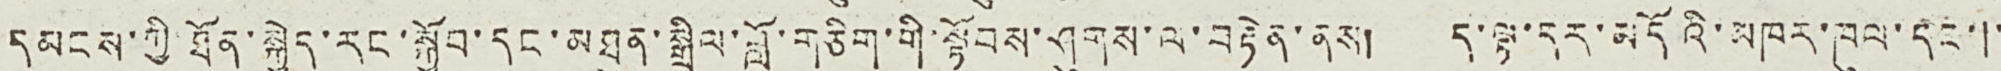དམངས་ཀྱི་ཐོན་སྐྱེད་རང་སྐྱོབ་དང་མཐུན་སྒྲིལ་བློ་གཅིག་གི་སྟོབས་ཤུགས་ལ་བརྟེན་ནས། ད་ལྟ་དར་མདོའི་མཁར་ཁུལ་དང་།་
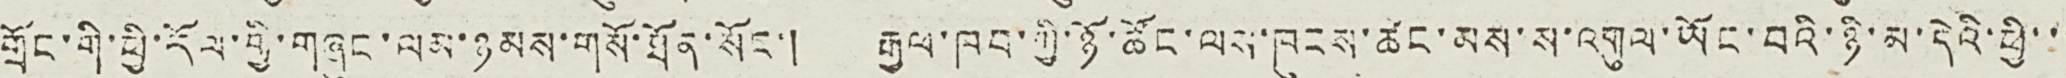གྲོང་གི་ཕྱི་རོལ་གྱི་གཞུང་ལམ་ཉམས་གསོ་ཐོན་སོང་། རྒྱལ་ཁབ་གྱི་ཉོ་ཚོང་ལས་ཁུངས་ཚང་མས་ས་འགུལ་ཡོང་བའི་ཉི་མ་དེའི་ཕྱི་་་
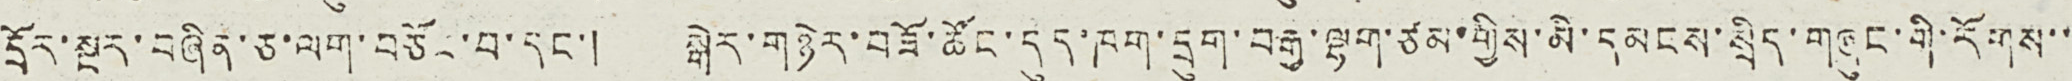དྲོར་སྔར་བཞིན་ཅ་ལག་བཅོང་བ་དང་། སྒེར་གཉེར་བཟོ་ཚོང་དུད་ཁག་དྲུག་བརྒྱ་ལྷག་ཙམ་གྱིས་མི་དམངས་སྲིད་གཞུང་གི་རོགས་་
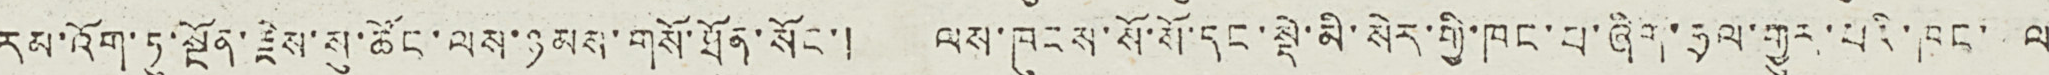རམ་འོག་ཏུ་སྔོན་རྗེས་སུ་ཚོང་ལས་ཉམས་གསོ་ཐོན་སོང་། ལས་ཁུངས་སོ་སོ་དང་སྡེ་མི་སེར་གྱི་ཁང་པ་ཞིག་ཧྲལ་གྱུར་པའི་ཁང་ ལ་
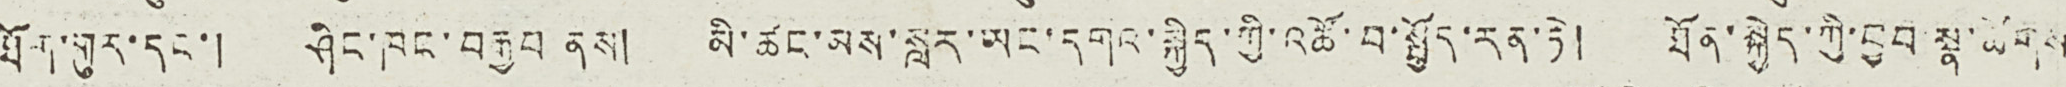ཐོག་གུར་དང་། ཤིང་ཁང་བརྒྱབ ནས། མི་ཚང་མས་སླར་ཡང་དགའ་སྐྱིད་ཀྱི་འཚོ་བ་སྤྱོད་རན་ཏེ། ཐོན་སྐྱེད་ཀྱི་བྱ་བ་སྣ་ཚོགས
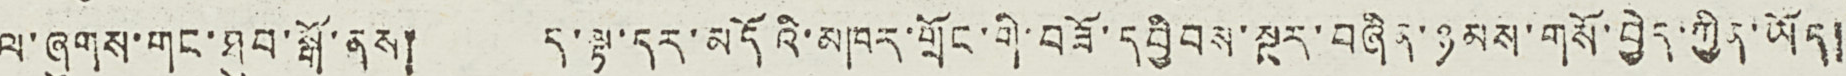ལ་ཞུགས་གང་ཐུབ་སྒོ་ནས། ད་ལྟ་དར་མདོའི་མཁར་གྲོང་གི་བཟོ་དབྱིབས་སྔར་བཞིན་ཉམས་གསོ་བྱེད་ཀྱིན་ཡོད།
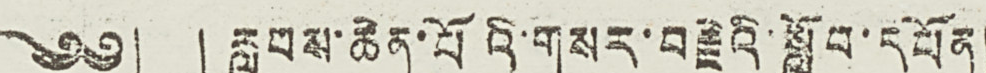༄༅། །རླབས་ཆེན་པོའི་གསར་བརྗེའི་སློབ་དཔོན།
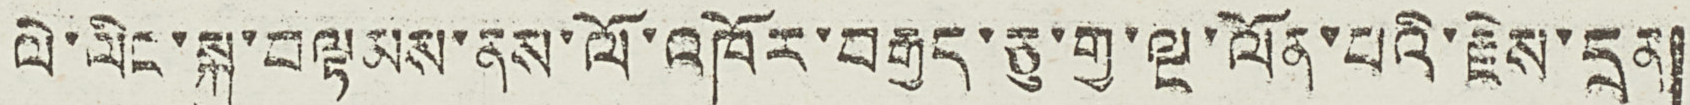ལེ་ལིང་སྐུ་བལྟམས་ནས་ལོ་འཁོར་བརྒྱད་ཅུ་གྱ་ལྔ་ལོན་པའི་རྗེས་དྲན།
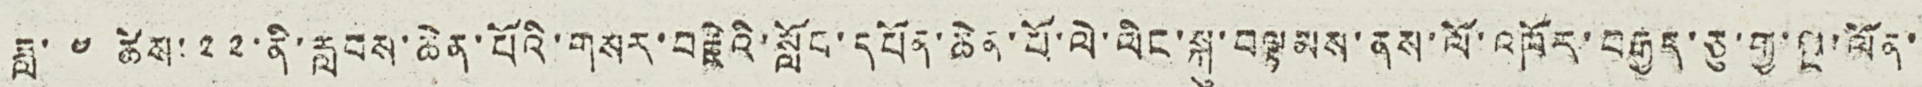ཟླ་ ༤ ཚེས་ ༢༢ ནི་རླབས་ཆེན་པོའི་གསར་བརྗེའི་སློབ་དཔོན་ཆེན་པོ་ལེ་ལིང་སྐུ་བལྟམས་ནས་ལོ་འཁོར་བརྒྱད་ཅུ་གྱ་ལྔ་ལོན་་
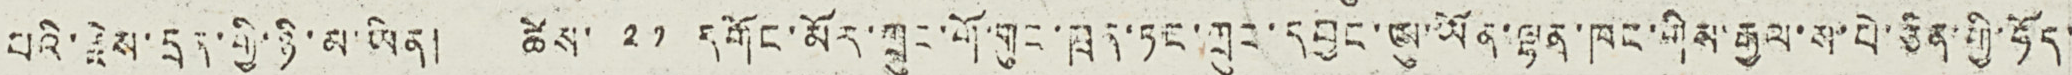པའི་རྗེས་དྲན་གྱི་ཉི་མ་ཡིན། ཚེས་ ༢༡ དགོང་མོར་ཀྲུང་གོ་གུང་ཁྲན་ཏང་ཀྲུང་དབྱང་ཨུ་ཡོན་ལྷན་ཁང་གིས་རྒྱལ་ས་པེ་ཅིན་གྱི་ཧོད་
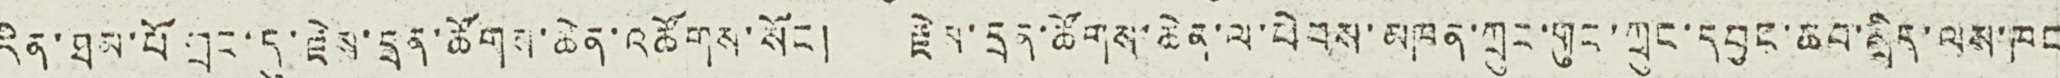རིན་ཐམ་ཕོ་བྲང་དུ་རྗེས་དྲན་ཚོགས་ཆེན་འཚོགས་སོང ། རྗེས་དྲན་ཚོགས་ཆེན་ལ་ཕེབས་མཁན་ཀྲུང་གུང་ཀྲུང་དབྱང་ཆབ་སྲིད་ལས་ཁང
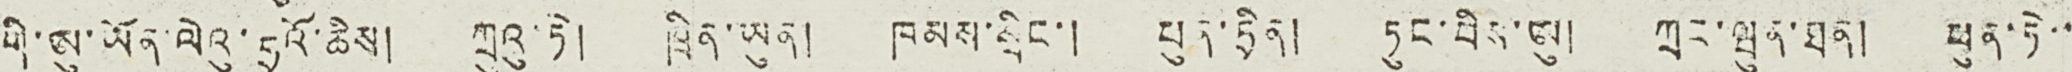གི་ཨུ་ཡོན་ལེའུ་ཧྲའོ་ཆིས། ཀྲུའུ་ཏེ། ཁྲིན་ཡུན། ཁམས་སྲིང་། ཕུན་ཏྲིན། ཏུང་བིས་ཨུ། ཀྲང་ཝུན་ཐན། ཕུན་ཏེ་་
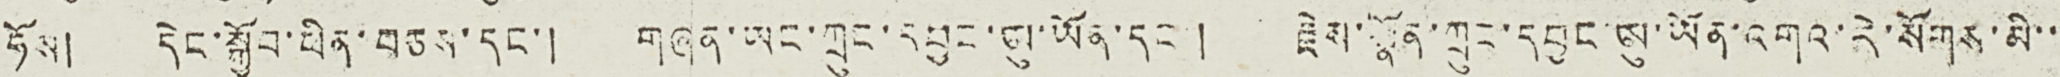ཧོས། དེང་སྒྱོབ་ཕིན་བཅས་དང་། གཞན་ཡང་ཀྲུང་དབྱང་ཨུ་ཡོན་དང་། རྗེས་སྣོན་ཀྲུང་དབྱང་ཨུ་ཡོན་འགའ་རེ་སོགས་མི་་་
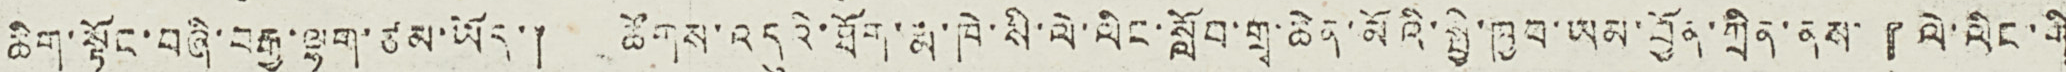ཆིག་སྟོང་བཞི་བརྒྱ་ལྷག་ཙམ་ཡོད་། ཚོགས་འདུའི་ཐོག་རྨ་ཁེ་སི་ལེ་ལིང་སློབ་གྲྭ་ཆེན་མོའི་སྤྱི་ཁྱབ་ཡམ་བྱོན་ཀྲིན་ནས་『ལེ་ལིང་གི
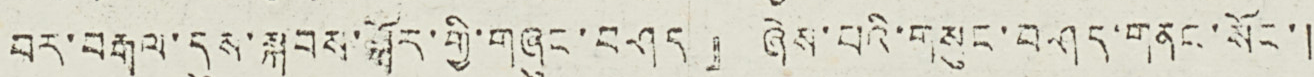བར་བརྒལ་དུས་སྐབས་སྐོར་གྱི་གཞུང་བཤད』 ཞེས་པའི་གསུང་བཤད་གནང་སོང་།
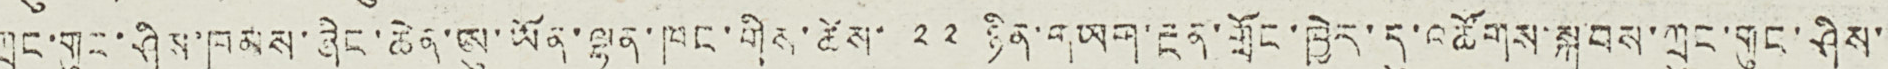ཀྲུང་གུང་ཤིས་ཁམས་ཞིང་ཆེན་ཨུ་ཡོན་ལྷན་ཁང་གིས་ཚེས་ ༢༢ ཉིན་གཡག་རྔན་གྲོང་ཁྱེར་དུ་འཚོགས་སྐབས་ཀྲུང་གུང་ཤིས་་
